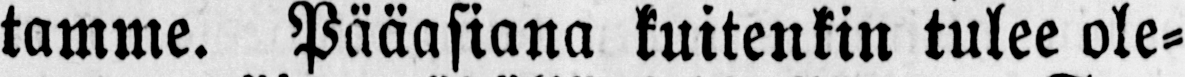tamme. Pääasiana kuitenkin tulee ole-
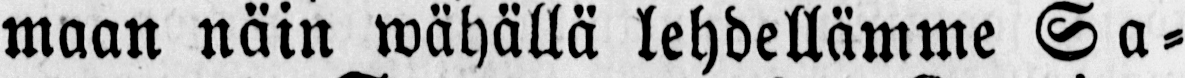maan näin wähällä lehdellämme Sa-
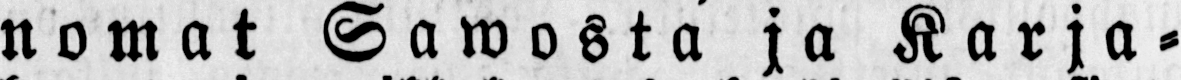nomat Sawosta ja Karja-
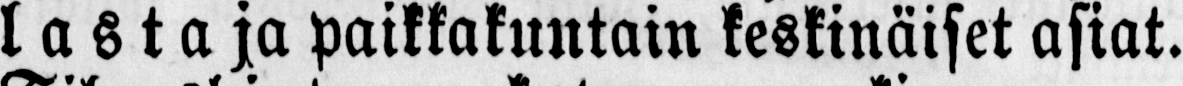lasta ja paikkakuntain keskinäiset asiat.
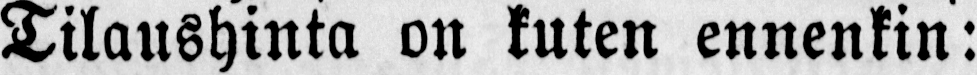Tilaushinta on kuten ennenkin:
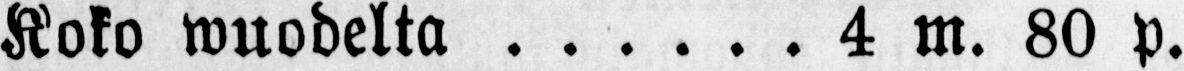Koko wuodelta 4 m. 80 p.
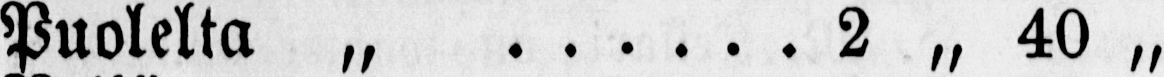Puolelta „ 2 „ 40 „
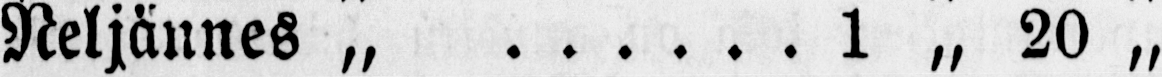Neljännes „ 1 „ 20 „
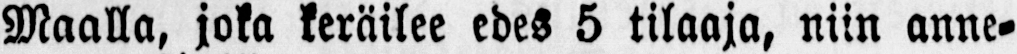Maalla, joka keräilee edes 5 tilaaja, niin anne-
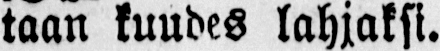taan kuudes lahjaksi.
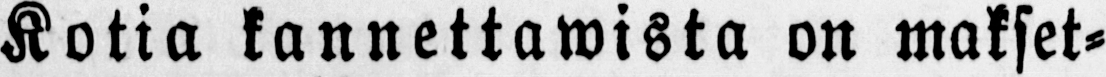Kotia kannettawista on makset-
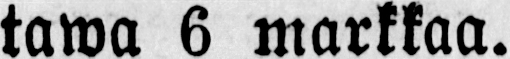tawa 6 markkaa.
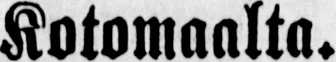Kotomaalta.
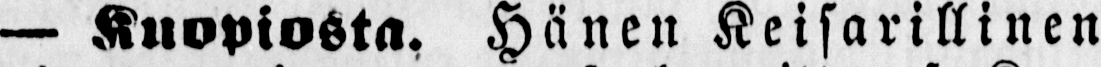— Kuopiosta. Hänen Keisarillinen
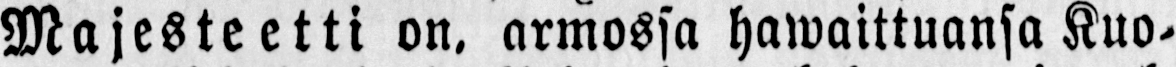Majesteetti on. armossa hawaittuansa Kuo-
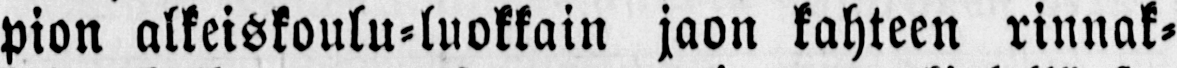pion alkeiskoulu-luokkain jaon kahteen rinnak-
